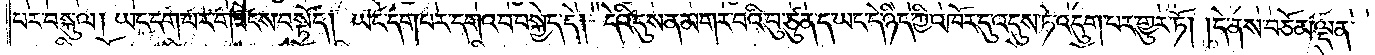པར་བསྐུལ། ཡང་དག་པར་གཟེངས་བསྟོད། ཡང་དག་པར་དགའ་བ་བསྐྱེད་དེ། དེའི་དུས་ན་མགར་བའི་བུ་ཙུན་ད་ཡང་དེ་ཉིད་ཀྱི་འཁོར་དུ་འདུས་ཏེ་འདུག་པར་གྱུར་ཏོ། །དེ་ནས་བཅོམ་ལྡན་
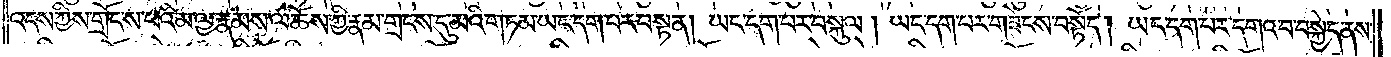འདས་ཀྱིས་གྲོང་ས་པའི་མ་ལྱ་རྣམས་ལ་ཆོས་ཀྱི་རྣམ་གྲངས་དུ་མའི་གཏམ་ཡང་དག་པར་བསྟན། ཡང་དག་པར་བསྐུལ། ཡང་དག་པར་གཟེངས་བསྟོད། ཡང་དག་པར་དགའ་བ་བསྐྱེད་ནས་
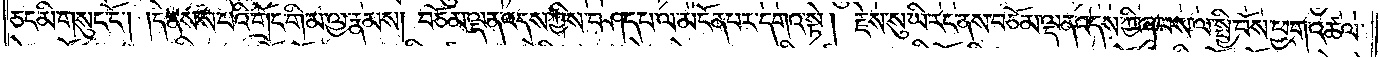ཅང་མི་གསུང་ངོ༌། །དེ་ནས་ས་པའི་གྲོང་གི་མ་ལྱ་རྣམས། བཅོམ་ལྡན་འདས་ཀྱིས་བཤད་པ་ལ་མངོན་པར་དགའ་སྟེ། རྗེས་སུ་ཡི་རང་ནས་བཅོམ་ལྡན་འདས་ཀྱི་ཞབས་ལ་སྤྱི་བོས་ཕྱག་འཚལ་
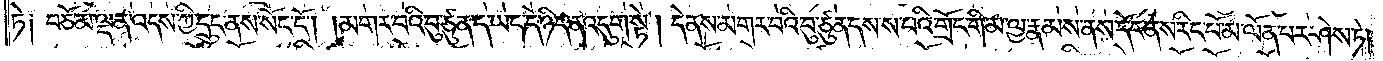ཏེ། བཅོམ་ལྡན་འདས་ཀྱི་དྲུང་ནས་སོང་ངོ༌། །མགར་བའི་བུ་ཙུན་ད་ཡང་དེ་ཉིད་ན་འདུག་སྟེ། དེ་ནས་མགར་པའི་བུ་ཙུན་དས་ས་པའི་གྲོང་གི་མ་ལྱ་རྣམས་ནས་དོང་ནས་རིང་པོ་མ་ལོན་པར་ཤེས་ཏེ་
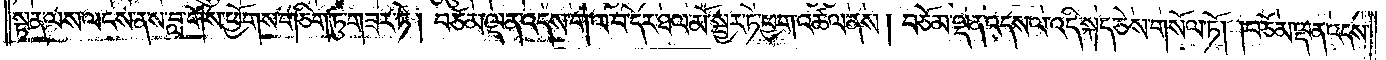སྟན་ལས་ལངས་ནས་བླ་གོས་ཕྱོགས་གཅིག་ཏུ་གཟར་ཏེ། བཅོམ་ལྡན་འདས་ག་ལ་བ་དེར་ཐལ་མོ་སྦྱར་ཏེ་ཕྱག་འཚལ་ནས། བཅོམ་ལྡན་འདས་ལ་འདི་སྐད་ཅེས་གསོལ་ཏོ། །བཅོམ་ལྡན་འདས་
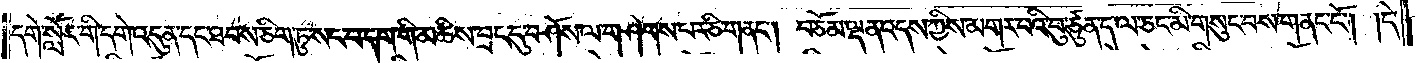དགེ་སློང་གི་དགེ་འདུན་དང་ཐབས་ཅིག་ཏུ་སང་བདག་གི་མཆིས་བྲང་དུ་བཤོས་ལ་གཤེགས་པར་ཅི་གནང༌། བཅོམ་ལྡན་འདས་ཀྱིས་མགར་བའི་བུ་ཙུན་ད་ལ་ཅང་མི་གསུང་བས་གནང་ངོ༌། །དེ་
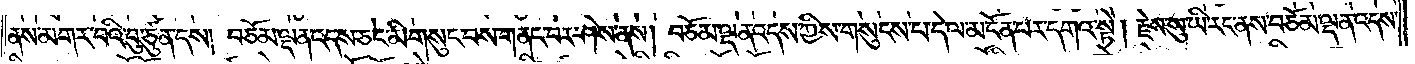ནས་མགར་བའི་བུ་ཙུན་དས། བཅོམ་ལྡན་འདས་ཅང་མི་གསུང་བས་གནང་བར་ཤེས་ནས། བཅོམ་ལྡན་འདས་ཀྱིས་གསུངས་པ་དེ་ལ་མངོན་པར་དགའ་སྟེ། རྗེས་སུ་ཡི་རང་ནས་བཅོམ་ལྡན་འདས་
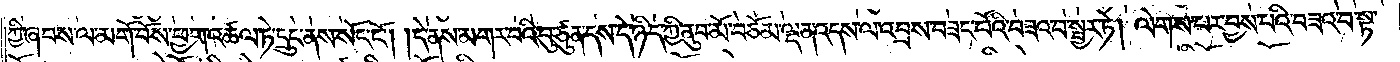ཀྱི་ཞབས་ལ་མགོ་བོས་ཕྱག་འཚལ་ཏེ་དྲུང་ནས་སོང་ངོ༌། །དེ་ནས་མགར་བའི་བུ་ཙུན་དས་དེ་ཉིད་ཀྱི་ནུབ་མོ་བཅོམ་ལྡན་འདས་ལ་འབྲས་བཟང་པོའི་བཟའ་བ་སྦྱར་ཏེ། ལེགས་པར་བྱས་པའི་བཟའ་བ་སྟ་
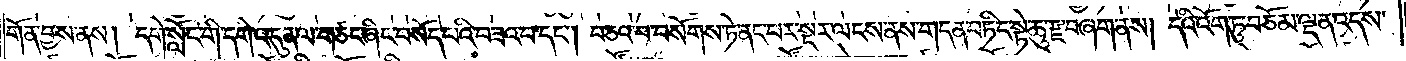གོན་བྱས་ནས། དགེ་སློང་གི་དགེ་འདུན་ལ་གཙང་ཞིང་བསོད་པའི་བཟའ་བ་དང༌། བཅའ་བ་བསོགས་ཏེ་ནང་པར་སྔར་ལངས་ནས་གདན་བཏིང་སྟེ་ཆུ་རྫ་བཞག་ནས། དེའི་འོག་ཏུ་བཅོམ་ལྡན་འདས་
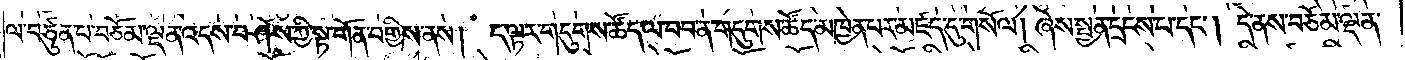ལ་བཙུན་པ་བཅོམ་ལྡན་འདས་བཤོས་ཀྱི་སྟ་གོན་བགྱིས་ནས། ད་ལྟར་གདུགས་ཚོད་ལ་བབ་ན་གདུགས་ཚོད་མཁྱེན་པར་མཛད་དུ་གསོལ། ཞེས་སྤྱན་དྲངས་པ་དང༌། དེ་ནས་བཅོམ་ལྡན་
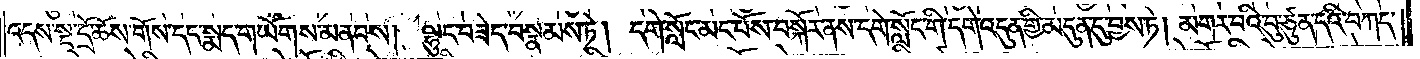འདས་སྔ་དྲོ་ཆོས་གོས་དང་སྨད་གཡོགས་མནབས། ལྷུང་བཟེད་བསྣམས་ཏེ། དགེ་སློང་མང་པོས་བསྐོར་ནས་དགེ་སློང་གི་དགེ་འདུན་གྱི་མདུན་དུ་བྱས་ཏེ། མགར་བའི་བུ་ཙུན་དའི་བཀད་
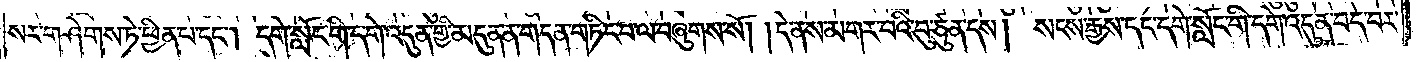སར་གཤེགས་ཏེ་ཕྱིན་པ་དང༌། དགེ་སློང་གི་དགེ་འདུན་གྱི་མདུན་ན་གདན་གཏིང་བ་ལ་བཞུགས་སོ། །དེ་ནས་མགར་བའི་བུ་ཙུན་དས། སངས་རྒྱས་དང་དགེ་སློང་གི་དགེ་འདུན་བདེ་བར་
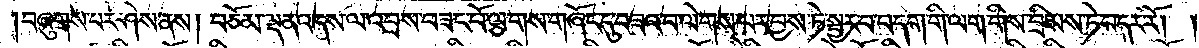བཞུགས་པར་ཤེས་ནས། བཅོམ་ལྡན་འདས་ལ་འབྲས་བཟང་པོ་ལྕགས་གཞོང་དུ་བཟའ་བ་ལེགས་པར་བྱས་ཏེ་སྦྱར་བ་བདག་གི་ལག་གིས་བྲིམས་ཏེ་བདར་རོ། །
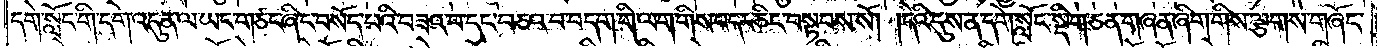དགེ་སློང་གི་དགེ་འདུན་ལ་ཡང་གཙང་ཞིང་བསོད་པའི་བཟའ་བ་དང་བཅའ་བ་བདག་གི་ལག་གིས་བདར་ཅིང་བསྟབས་སོ། །དེའི་དུས་ན་དགེ་སློང་སྡིག་ཅན་གཞན་ཞིག་གིས་ལྕགས་གཞོང་
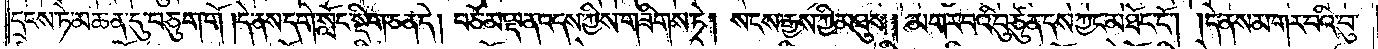དྲངས་ཏེ་མཆན་དུ་བཅུག་གོ །དེ་ནས་དགེ་སློང་སྡིག་ཅན་དེ། བཅོམ་ལྡན་འདས་ཀྱིས་གཟིགས་ཏེ། སངས་རྒྱས་ཀྱི་མཐུས། མགར་བའི་བུ་ཙུན་དས་ཀྱང་མཐོང་ངོ༌། །དེ་ནས་མགར་བའི་བུ་
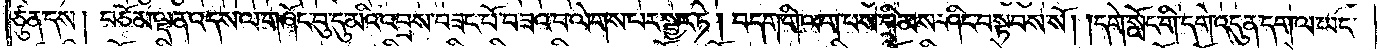ཙུན་དས། བཅོམ་ལྡན་འདས་ལ་གཞོང་བུ་དུ་མའི་འབྲས་བཟང་པོ་བཟའ་བ་ལེགས་པར་སྦྱར་ཏེ། བདག་གི་ལག་པས་བྲིམས་ཤིང་བསྟབས་སོ། །དགེ་སློང་གི་དགེ་འདུན་དག་ལ་ཡང་
